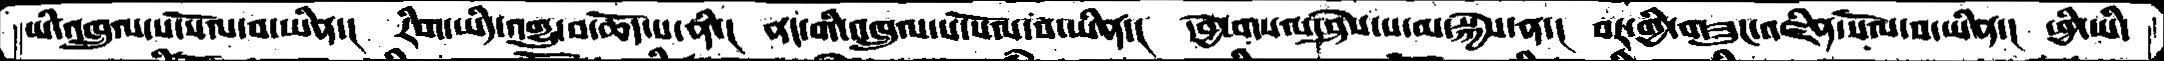ཡི་འཁྲུལ་པ་སོལ་བ་ཡིན་།  རིག་ཡིད་འགྱུ་བ་ཆོད་པ་ནི་།  ནང་གི་འཁྲུལ་པ་སོལ་བ་ཡིན་།  དབྱེ་གསལ་ཤེས་པ་མ་སྐྱེས་ན་།  བར་གྱི་གཟུང་འཛིན་སོལ་བ་ཡིན་།  ཕྱི་ཡི་
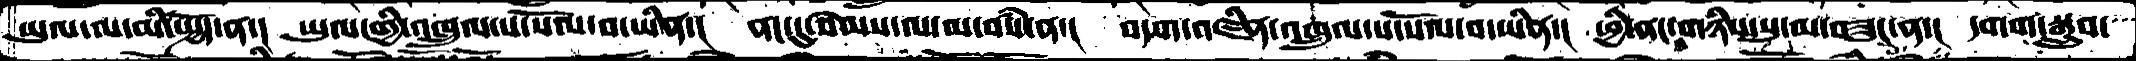ཡུལ་ལ་མི་སྤྱོད་ན་།  ཡུལ་གྱི་འཁྲུལ་པ་སོལ་བ་ཡིན་།  ནང་དུ་སེམས་ལ་མ་བསཾ་ན་།  བདག་འཛིན་འཁྲུལ་པ་སོལ་བ་ཡིན་།  ཕྱི་ནང་གཉིས་སུ་མ་བཟུང་ན་།  དགག་སྒྲུབ་
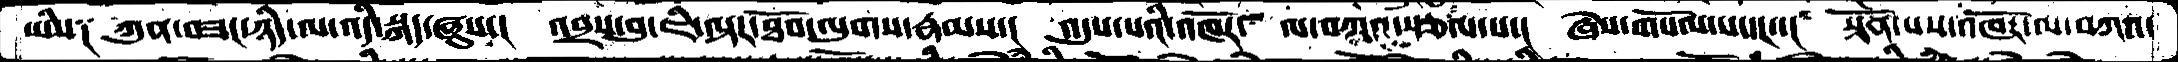ཡིས༑  ཀུན་བཟང་ཉིད་ལ་འདི་སྐད་ཞུས་།  འབྲས་བུ་ཇི་ལྟར་ཐོབ་ལུགས་རྣམས་།  འདུས་པའི་འཁོར་ ལ་བཀའ་སྩལ་པ་།  ཞེས་གསོལ་པ་དང་་།  སྟོན་པས་འཁོར་ལ་བཀའ་
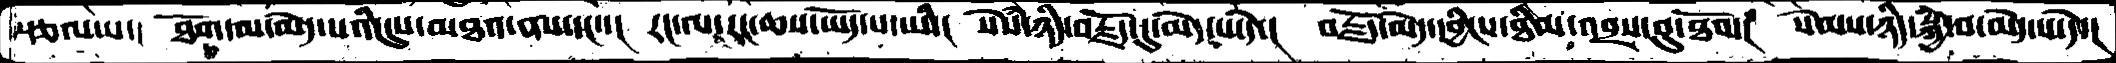སྩལ་པ་།  ཐོག་མ་མེད་པའི་དུས་མཐའ་ནས་དང་་།  རང་ལ་རང་ཆས་ཡོད་པ་ཡི་།  སེཾས་ཉིད་བརྗོད་དུ་མེད་པ་དེ་།  བརྗོད་མེད་དབྱིངས་ཐིམ་འབྲས་བུ་ཐོབ་།  སེམས་ཉིད་སྐྱེ་བ་མེད་པ་དེ་།
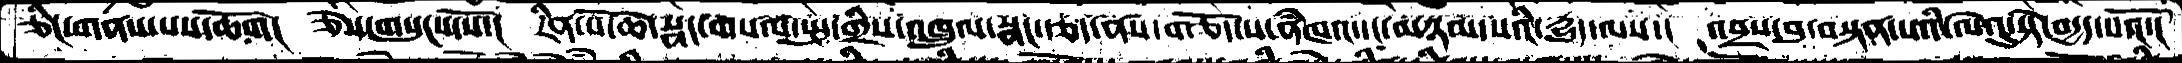ཅིང་གནས་པས་ཆོག།  ཅེས་གསུངས་སོ་།  རིན་པོ་ཆེ་སྣང་གསལ་སྤུ་གྲིས་འཁྲུལ་སྣང་རྩད་ནས་གཅོད་པ་ནཾཁའ་དང་མཉམ་པའི་དྱུད་ལས་།  འབྲས་བུ་བསྟན་པའི་ལེའུ་སྟེ་བདྱད་པའོ་།
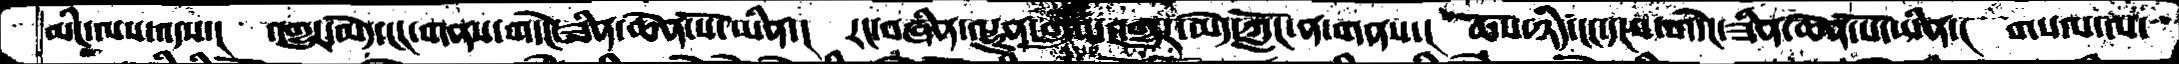མིང་ལས་འདས་།  འགྱུར་མེད་ངང་གནས་གདེང་ཟིན་ཆེན་པོ་ཡིན་།  རང་བཞིན་ལྷུན་གྲུབ་འགྱུར་མེད་ཀློང་ན་གནས་།  ཆོས་ཉིད་ངང་དངས་གདེང་ཟིན་ཆེན་པོ་ཡིན་།  གསལ་ལ་
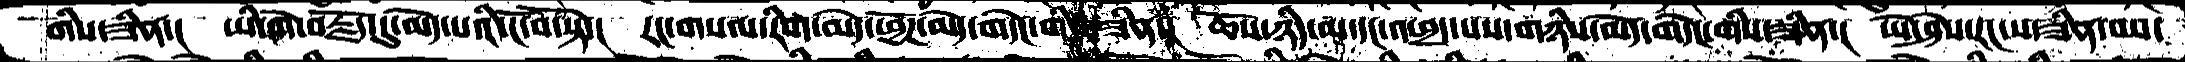གིས་ཟིན་།  ཡི་གེ་བརྗོད་དུ་མེད་པའི་ངོ་བོ་སྟེ་།  རང་གསལ་རིག་མེད་ཕྱོཌ་མེད་གདེང་གིས་ཟིན་།  ཆོས་ཉིད་མ་དང་འཕྲད་པས་གཉིས་མེད་གདེང་གིས་ཟིན་།  ཡེ་ཤེས་རང་ས་ཟིན་པས་
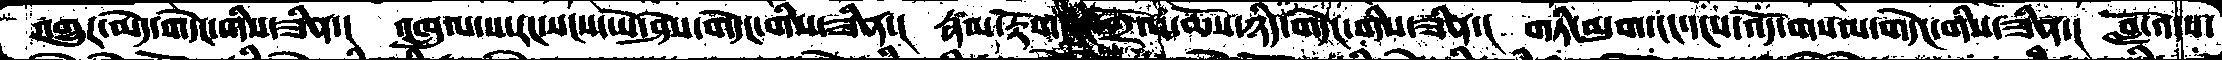འགྱུར་མེད་གདེང་གིས་ཟིན་།  འཁྲུལ་པ་རང་སངས་ཡེ་ཤེས་གདེང་གིས་ཟིན་།  རྣམ་རྟོག་རང་གྲོལ་ཆོས་ཉིད་གདེང་གིས་ཟིན་།  གཏི་མུག་ངང་དངས་འོད་གསལ་གདེང་གིས་ཟིན་།  བློ་འདས་
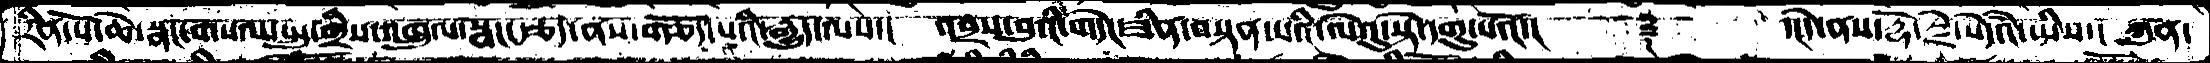རིན་པོ་ཆེ་སྣང་གསལ་སྤུ་གྲིས་འཁྲུལ་སྣང་རྩད་ནས་གཅོད་པའི་རྒྱུད་ལས་།  འབྲས་བུའི་གདེང་ཟིན་བསྟན་པའི་ལེའུ་སྟེ་དགུ་པའོ་།    ༈    ་།དེ་ནས་རྡོ་རྗེ་སེདཾའ་ཡིས་།  ཀུན་
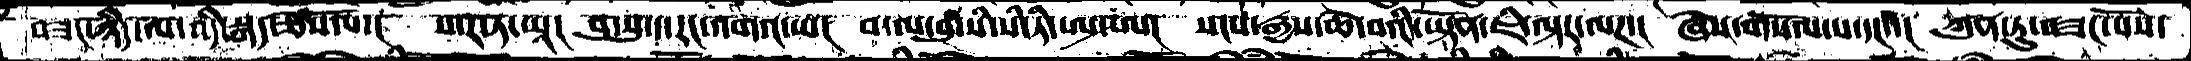བཟང་ཉིད་ལ་འདི་སྐད་ཅེས་སོ་།  ས་ར་ཏ་ཡཱ།  བུ་སུ་ད་རང་འགའ་ཡ།  བ་ལ་བུ་སི་སི་ཏི་ཨ་ཨ།  སངས་རྒྱས་ཆེ་བའི་ཡྟོན་ཇི་ལྟར་ལཌ་།  ཞེས་གསོལ་པ་དང་་།  ཀུན་ཏུ་བཟང་པོས་
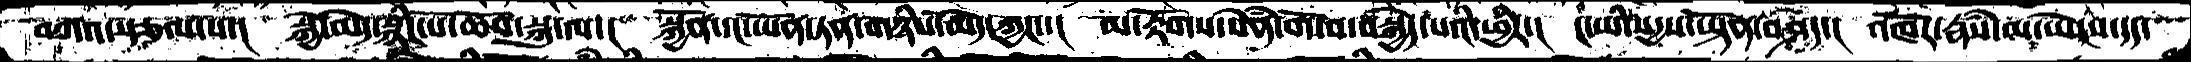བཀའ་སྩལ་པ་།  སྐྱེ་མེད་སྙིང་པོ་ཆོས་སྐུ་ལ་།  སྐྱོན་དང་ཡོན་ཏན་གཉིས་མེད་ཀྱང་་།  མ་རྟོགས་སེནཾ་གོ་བ་བསྐྱེད་པའི་ཕྱིར་།  ང་ཡི་སདྱས་ཡྟོན་བཤད་།  འཁོར་རྣཾས་མ་ཡེངས་དད་
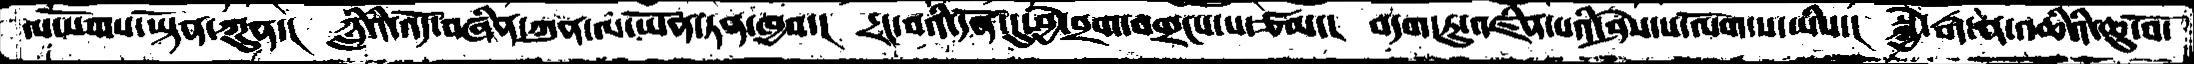ལ་སོགས་ཡྟོན་ཀུན་།  ཉླིའི་འོད་བཞིན་ཀུན་ལ་ཡོན་ཏན་ཁྱབ་།  དྲང་བའི་དོན་དུ་བྱེ་བྲག་བགྲངས་པ་ཙམ་།  བདག་ཏུ་འཛིན་པའི་ཤེས་པ་ལོག་པ་ཡིས་།  སྐྱེ་རྒ་ན་འཆིའི་ཆུ་བོ་
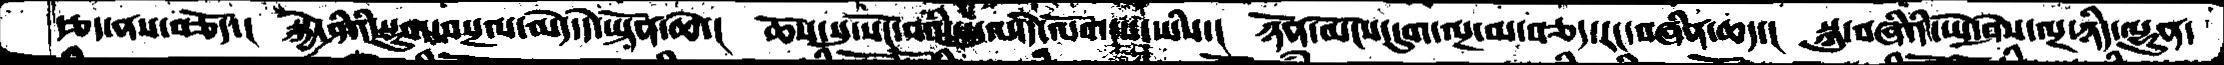རྩད་ནས་བཅོད་།  སྐྱེ་ཤིའི་སྡུག་བསྔལ་མེད་དེ་ཡྟོན་ཆེ་།  ཆོས་སུ་སོང་བའི་ཡུལ་དེ་ལོག་པ་ཡིས་།  ཉོན་མོངས་དུག་ལྔ་མ་བཅད་རང་བཞིན་ཆད་།  སྐུ་བཞིའི་ཡེ་ཤེས་ལྔ་ཉིད་ལྷུན་
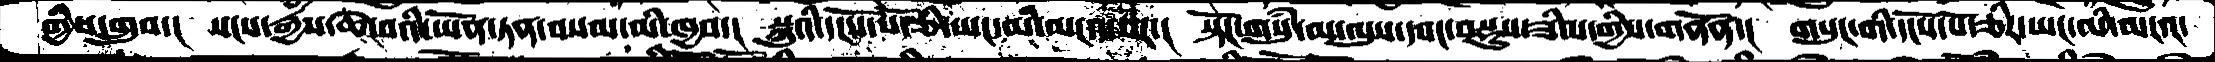གྱིས་གྲུབ་།  སངས་རྒྱས་ཆེ་བའི་ཡོན་ཏན་བསམ་མི་ཁྱབ་།  སྐུའི་དངོས་པོ་ཅི་ཡང་མི་མངའ་བར་།  སྟོང་གསུཾ་མ་ལུས་དབང་བསྡུས་ཟིལ་གྱིས་གནོན་།  གསུང་གི་དངོས་པོ་ཅིར་ཡང་མི་མངའ་
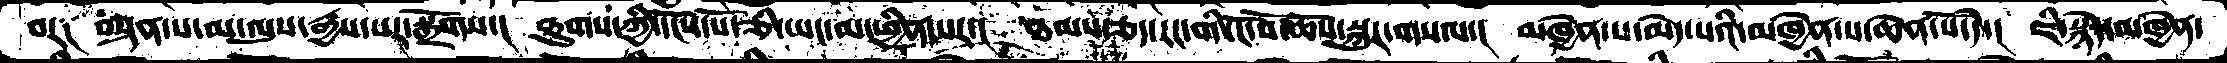བར༑  བསྟན་པ་མ་ལུས་རྒྱས་པར་སྒྲོགས་།  ཐུགས་ཀྱི་དངོས་པོ་ཅི་ཡང་མ་ཕྱིན་པར་།  ཐམས་ཅད་རང་གི་ངོ་བོ་ཆོས་སྐུར་གསལ་།  མཁྱེན་པ་མེད་པའི་མཁྱེན་པ་ཆེན་པོ་དེ་།  ཇི་སྙེད་མཁྱེན་
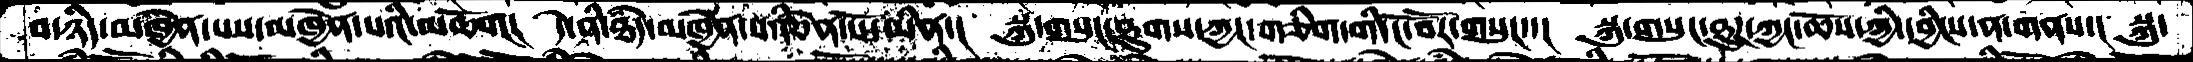བ་ཉིད་མཁྱེན་པས་མཁྱེན་པའི་མཆོག།  དེ་ནི་ཐཾད་མཁྱེན་པའི་ཆེན་པོ་མིན་།  སྐུ་གསུང་ཐུགས་ཀྱང་གཅིག་གི་ངོ་བོར་གསུང་་།  སྐུ་གསུང་ཐུཌ་ཀྱང་ཆོས་ཀྱི་དབྱིངས་ན་གནས་།  སྐུ་
